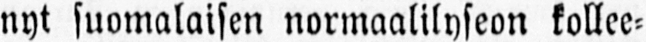nyt suomalaisen normaalilyseon kollee-
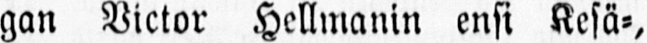gan Victor Hellmanin ensi Kesä-,
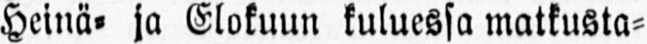Heinä- ja Elokuun kuluessa matkusta-
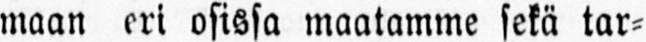maan eri osissa maatamme sekä tar-
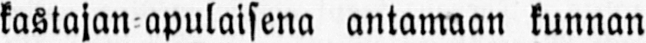kastajan apulaisena antamaan kunnan
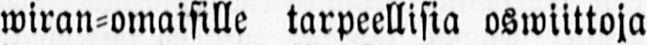wiran-omaisille tarpeellisia oswiittoja
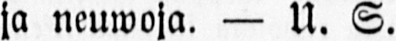ja neuwoja. — U. S.
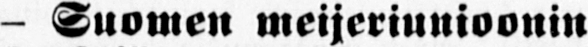- Suomen meijeriunioonin
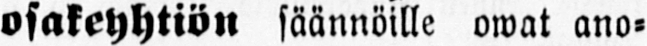osakeyhtiön säännöille owat ano-
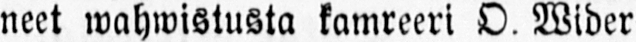neet wahwistusta kamreeri O. Wider-
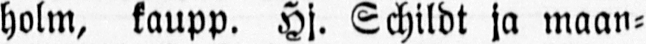holm, kaupp. Hj. Schildt ja maan-
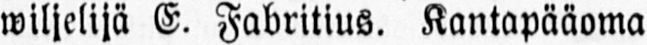wiljelijä E. Fabritius. Kantapääoma
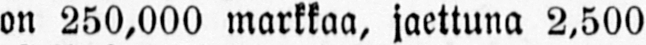on 250,000 markkaa, jaettuna 2,500
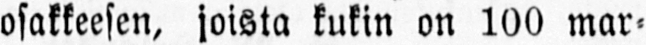osakkeesen, joista kukin on 100 mar-
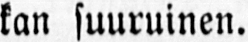kan suuruinen.
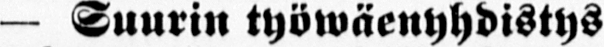— Suurin työwäenyhdistys
